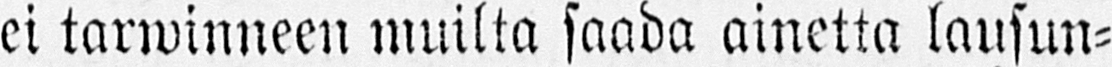ei tarwinneen muilta saada ainetta lausun-
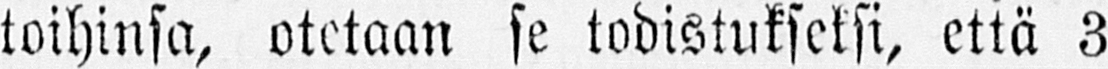toihinsa, oietaan se todistukseksi, että 3
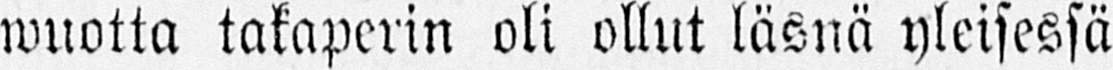wuotta takaperin oli ollut läsnä yleisessä
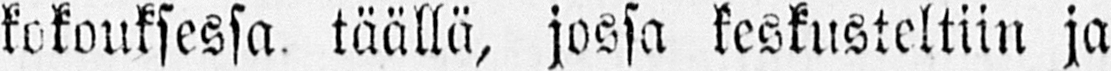kokouksessa täällä, jossa keskusteltiin ja
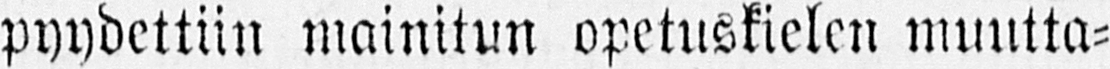pyydettiin mainitun opetuskielen muutta-
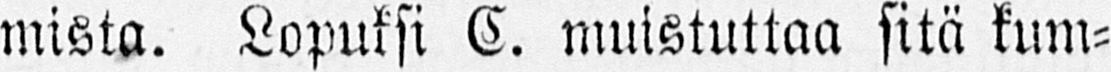mista. Lopuksi C. muistuttaa sitä kum-
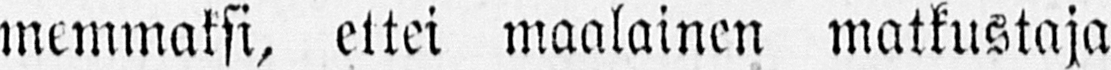memmaksi, ettei maalainen matkustaja
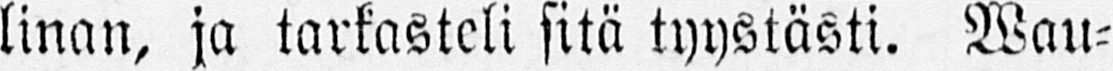linan, ja tarkasteli sitä tyystästi. Wau-
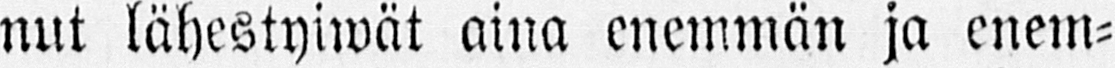nut lähestyiwät aina enemmän ja enem-
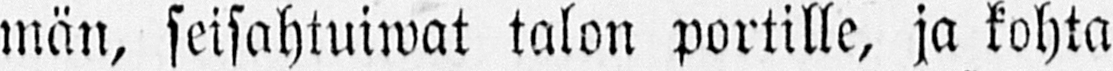män, seisahtuiwat talon portille, ja kohta
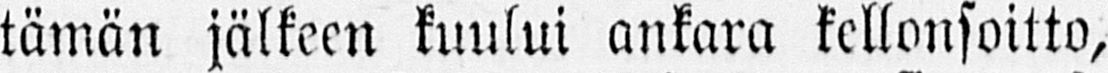tämän jälkeen kuului ankara kellonsoitto,
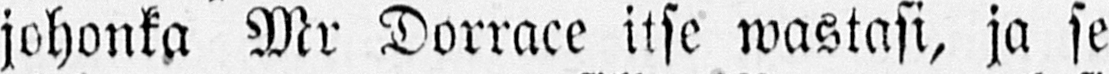johonka Mr Dorrace itse wastasi, ja se
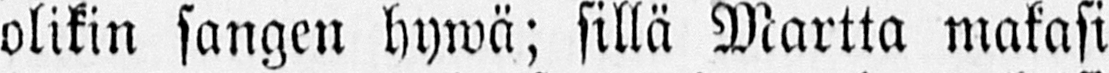olikin sangen hywä; sillä Martta makasi
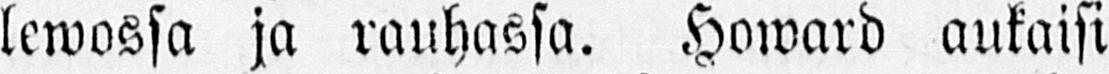lewossa ja rauhassa. Howard aukaisi
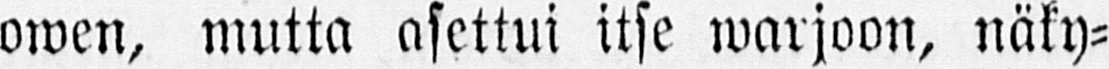owen, mutta asettui itse warjoon, näky-
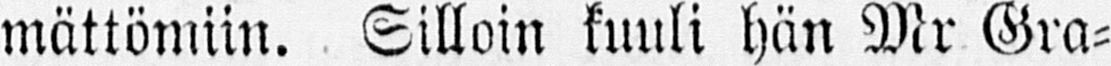mättömiin. Silloin kuuli hän Mr Gra-
